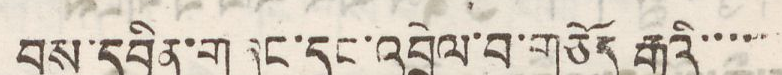བས་དབྱིན་གཞུང་དང་འབྲེལ་བ་གཅོད་རྒྱུའི་་་་་
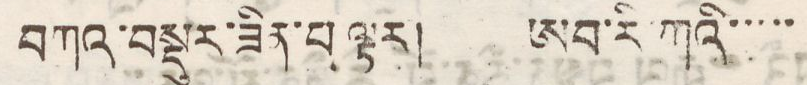བཀའ་བསྡུར་ཟིན་པ ལྟར། ཨབ་རི་ཀའི་་་་་་
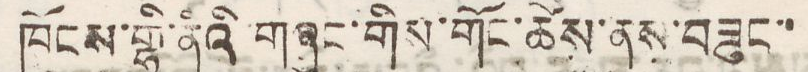ཁོངས་གྷི་ནཾའི གཞུང་གིས་གོང་ཚེས་ནས་བཟུང་་
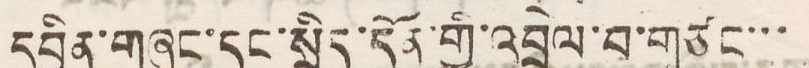དབྱིན་གཞུང་དང་སྲིད་དོན་གྱི་འབྲེལ་བ་གཙང་་་
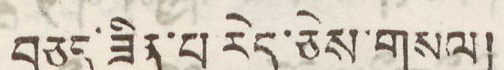བཅད་ཟིན་པ་རེད་ཅེས་གསལ།
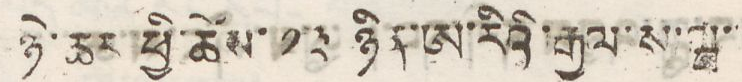ཉེ་ཆར་ཕྱི་ཚེས་ ༡༣ ཉིན་ཨ་རིའི་རྒྱལ་ས་ཝ་
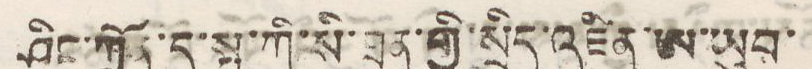ཤིང་ཀྲོན་དུ་སྤ་ཀི་སི་ཐན་གྱི་སྲིད་འཛིན་ཨ་ཡུབ་
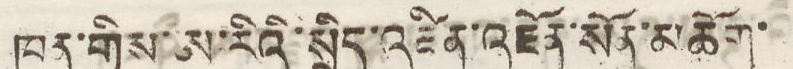ཁན་གྱིས་ཨ་རིའི་སྲིད་འཛིན་འཇོན་སོན་མཆོག་
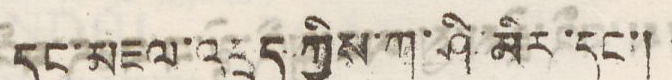དང་མཇལ་འཕྲད་ཀྱིས་ཀ་ཤི་མིར་དང་།
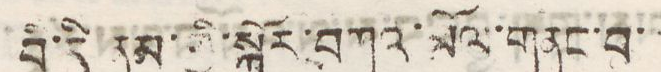བི་དི་ནམ་གྱི་སྐོར་བཀའ་མོལ་གནང་བ་
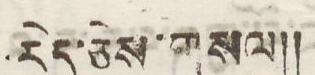རེད་ཅེས་གསལ།།
